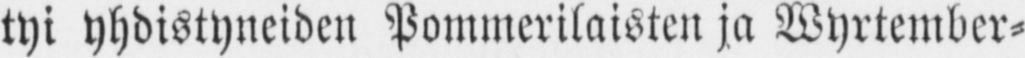tyi yhdistyneiden Pommerilaisten ja Wyrtember-
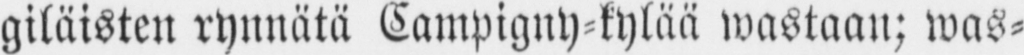giläisten rynnätä Campigny-kylää wastaan; was-
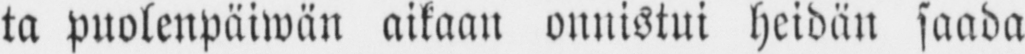ta puolenpäiwän aikaan onnistui heidän saada
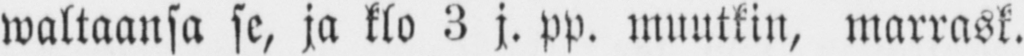waltaansa se, ja klo 3 j. pp. muutkin, marrask.
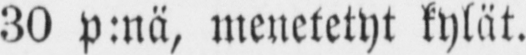30 p:nä, menetetyt kylät.
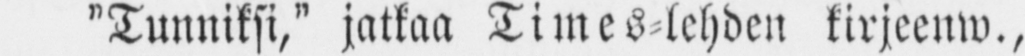”Tunniksi,” jatkaa Times-lehden kirjeenw.,
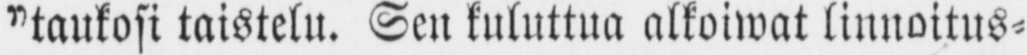”taukosi taistelu. Sen kuluttua alkoiwat linnoitus-
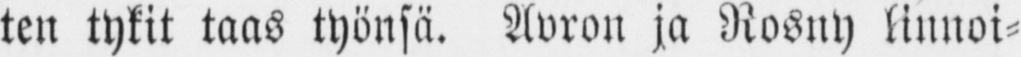ten tykit taas työnsä. Avron ja Rosny linnoi-
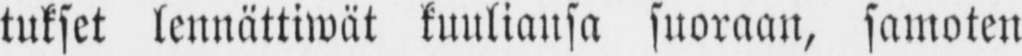tukset lennättiwät kuuliansa suoraan, samoten
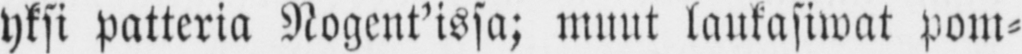yksi patteria Nogent’issa; muut laukasiwat pom-
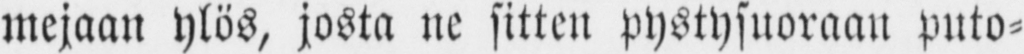mejaan ylös, josta ne sitten pystysuoraan puto-
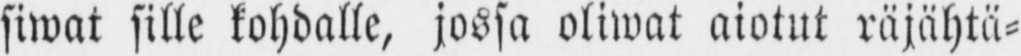siwat sille kohdalle, jossa oliwat aiotut räjähtä-
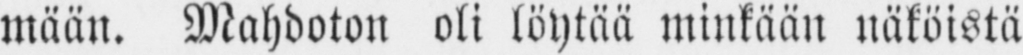mään. Mahdoton oli löytää minkään näköistä
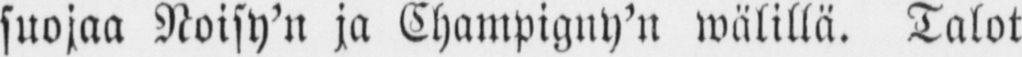suojaa Noisy'n ja Champigny’n wälillä. Talot
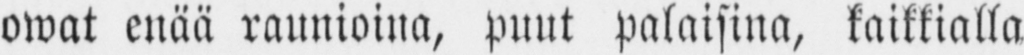owat enää raunioina, puut palaisina, kaikkialla
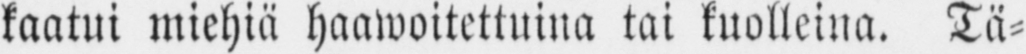kaatui miehiä haawoitettuina tai kuolleina. Tä-
